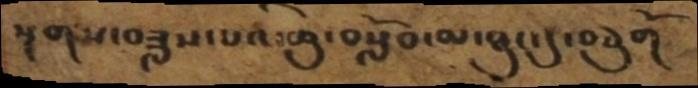སྔགས་བཟླས་པའི་ཆུ་བསློབ་མ་ཐུང་དུ་བཅུགོ
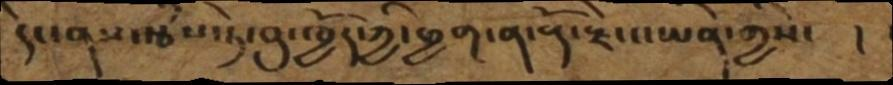དེང་ནས་རྩཾས་ཏེ་བུ་ཁྱོད་ཀྱི་ཕྱག་ན་རྡོ་རྗེས་ཡིན་གྱིས་ །
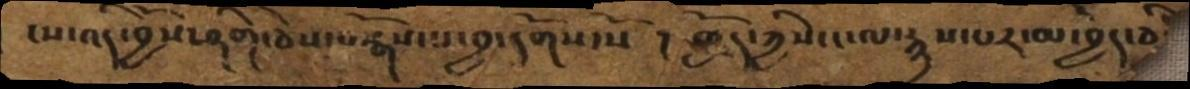ངས་འདི་བྱོས་ཤིག་ཅེས་བསྒོས་པ་བྱ་དགོས་སོ་། ཁྱོད་ཀྱིས་ང་ལ་རྙས་པར་མ་བྱེད་ཅི
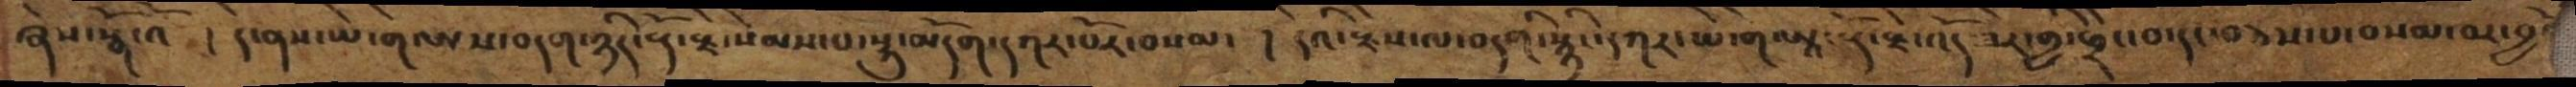ཞེས་སྒོ་འོ ། དེ་ནས་ཡི་གེ་ཨས་བདག་ཉིད་རྡོ་རྗེ་སེམས་པ་སྐུ་མདོག་དཀར་པོར་བསམ་ ། དེའི་རྗེས་ལ་བདགི་སྙིང་དཀར་ཡི་གེ་ཨཱ་རྡོ་རྗེ་འོད་ཟེར་གྱི་ཕྲེང་བ་དང་བཅས་པ་བསམ་བར་བྱའོ་
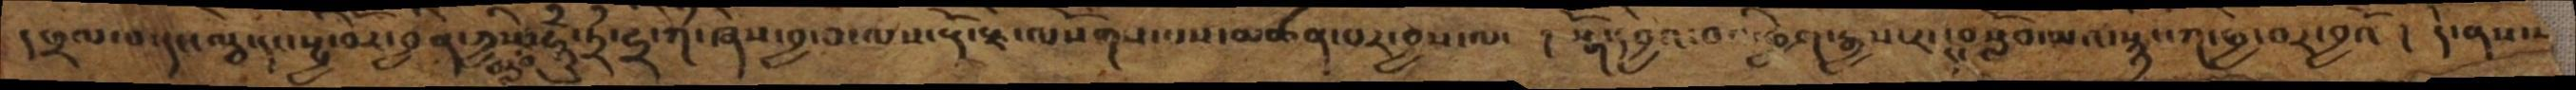དཕྲལ་བ་དང་ལྕེ་དང་སྤྱི་བོར་བྱིན་ཀྱིས་བརླབ་ཧཱུྃ་ཏྲྃ་ཀཾ་ཞེས་བྱ་བ་ལས་རྡོ་རྗེ་ལསོགས་པས་མཚན་པར་བྱས་ལ་  ། སྒོ་དབྱེའ་བའི་ཕྱག་རྒྱས་རང་དང་བསློབ་མའི་སྙིང་ཀ་ཕྱེ་བར་བྱའོ ། དེ་ནས་
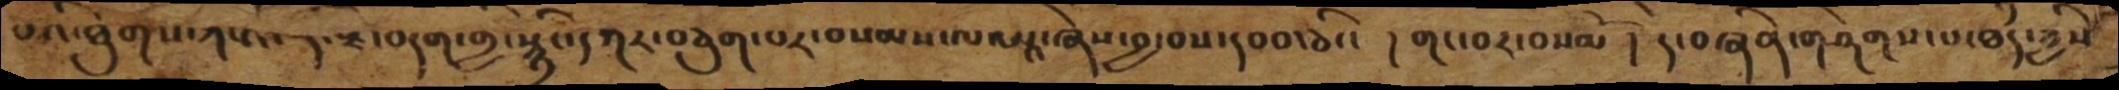པའི་ཐུགས་ཀས་རྡོ་རྗེ་བདག་གྱི་སྙིང་དཀར་བཅུག་པར་བསམས་ལ་ཨཱ་ཞེས་བྱ་བས་དབབ་ཅིང་ ། གང་བར་བསམོ ། དེ་བཞིན་གཤེགས་པ་ཐཾད་ཀྱིས་
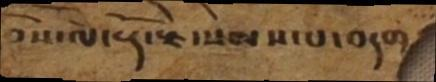བོས་ལ་རྡོ་རྗེ་སེམས་པ་བདག
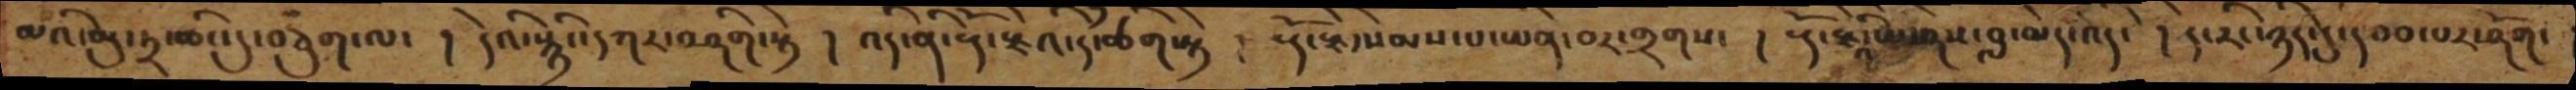མའི་མུ་ཏྲ་ཆིང་དུ་བཅུག་ལ་ ། དེའི་སྙིང་དཀར་བཤིག་སྟེ ། འདི་ནི་རྡོ་རྗེའི་དཾ་ཚིག་སྟེ ། རྡོ་རྗེ་སེམས་པ་ཡིན་བར་གྲགས ། རྡོ་རྗེའི་ཨ་ནས་བླ་མེད་འདི་ ། དེ་རིང་ཉིད་དུ་དབབ་པར་ཤོག་
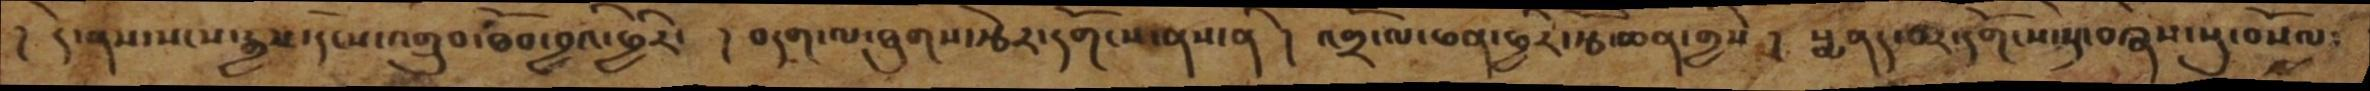།  དེ་ནས་སངས་རྒྱས་དོས་གྲུབ་ཐོབ་བྱའི་ཕྱིར་  ། བདག་ལ་ཐུགས་རྩེར་དགོངས་ནས་ནི །  འགྲོ་ལ་ཕན་ཕྱིར་རྩོ་ཆན་གྱིས །  སྨནད་པར་དགོངས་སྟེ་བཞེས་སུ་བསོལ
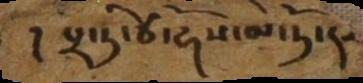།  པྲ་ཏི་ཙ་ཧོས་མེ་ཏོ་ད
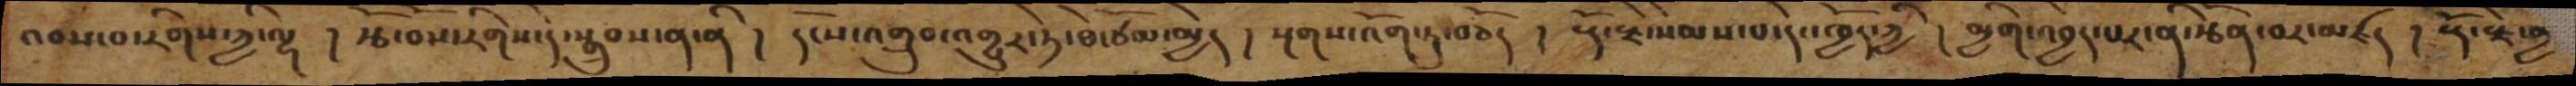འབས་བ་རིགས་ཀྱི་ལྷ ། རྩོ་བོས་རིགས་དེ་སྒྲུབས་ན་ནི ། དངོས་འགྲུབ་འགྱུར་ཏེ་ཐེ་ཙོམ་མྱེད ། སྔགས་འོག་ཏུ་བཅོད ། རྡོ་རྗེ་སེམས་པ་དེང་ཁྱོད་ཀྱི ། མྱིག་འབྱེད་པར་ནི་རྩེན་བར་མཛད ། རྡོ་རྗེ་བླ
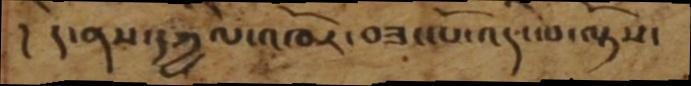།   དེ་ནས་དཀྱིལ་འཁོར་བཟང་པོ་འདི་ལ་ལྟོས་
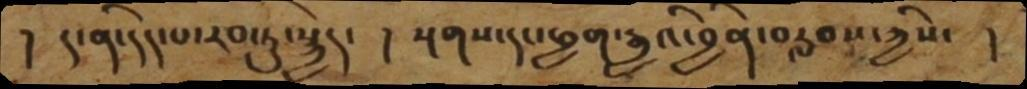། ད་ནི་དད་པ་རབ་ཏུ་སྐྱེད་  ། སྔགས་དང་ཕྱག་རྒྱའི་བྱིན་བརླབས་ཀྱིས་  །
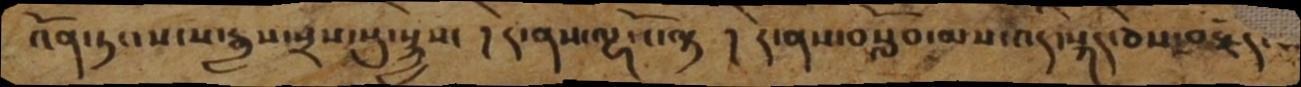འོན་ཏང་སངས་རྒྱས་སྲས་སུ་སྐྱེས་ །དེ་ནས་ལྷ་ངོ་ལྟ །དེ་ནས་བསློབ་མས་འདི་སྐད་ཅེས་བརྗོད་
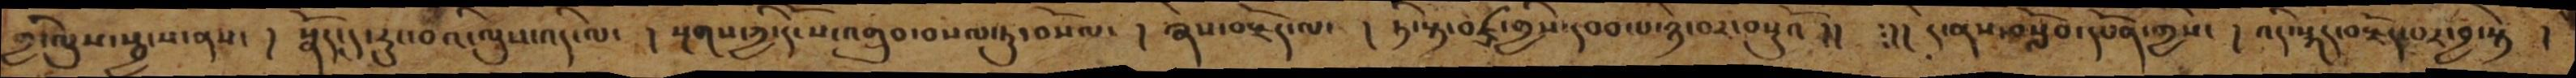གྱི་ལུས་སྦྱངས་ནས་ ། སྣོད་དུ་རུང་བའི་ལུས་འདི་ལ་ ། སྔགས་ཀྱི་དངོས་འགྲུབ་བསལ་ཏུ་བསོལ་ ། ཞེས་བརྗོད་ལ་ ། ཏི་སྟ་བཛྲ་གྱིས་དབབ་པ་ཉེ་བར་བསྡུའོ །།  །། དེ་ནས་བསློབ་དཔོན་གྱིས་ ། འདི་སྐད་བརྗོད་པར་བྱ་སྟེ །
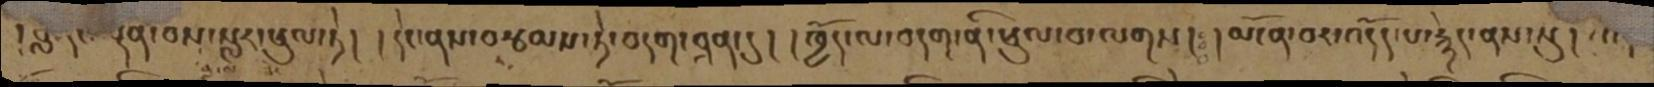།བློ་དང་ལྡན་བས་སླར་ཕུལ་ཏེ། །དེང་ནས་བརྩམས་ཏེ་བདག་བྲན་དུ། །ཁྱོད་ལ་བདག་ནི་ཕུལ་བ་ལགས། །མངོན་བར་འདོད་པ་རྙེད་ནས་སུ། །
